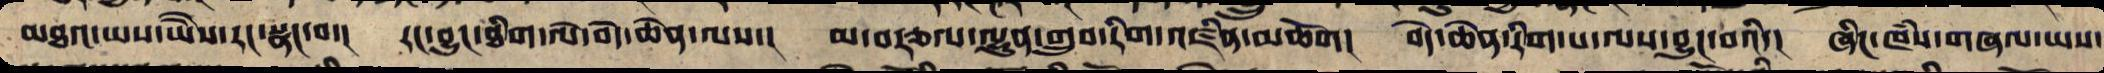མཐའ་ཡས་ཡཻས་རང་སྣང་ལ་། །ང་བྱུང་ཐིག་ལེ་བདེ་ཆེན་ལས་། མ་བརྩལ་ལྷུན་གྲུབ་རིག་འཛིན་མཆོག། བདེ་ཆེན་རིག་པ་ལས་བྱུང་བའི་། ཞིང་ཁཾས་གཞལ་ཡས་
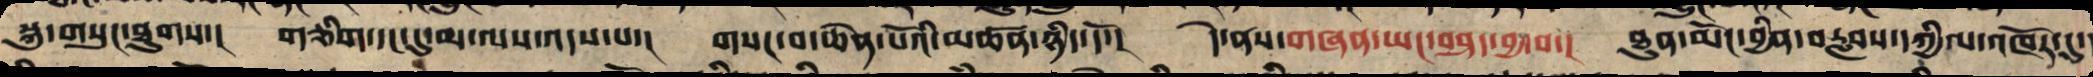སྐུ་གསུང་ཐུགས་། གཅིག་དང་དུ་མ་ལས་འདས་པ་། གསང་བ་ཆེན་པོའི་མཚན་ཉིད་དོ་། དེ་ནས་གཞན་ཡང་བཤད་བྱ་བ་། ཐུན་མོང་བྱིན་བརླབས་དཀྱིལ་འཁོར་དུ་
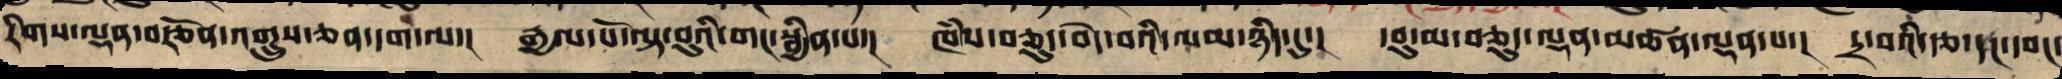རིགས་ལྡན་བརྩོན་འགྲུས་ཅན་དག་ལ་། རྒྱལ་པོ་ལྟ་བུ་གང་སྦྱིན་པ་། ཁཾས་བཅུད་བདེ་བའི་ལམ་ཉིད་དུ་། དབུ་མ་བཅུད་ལྡན་མཚན་ལྡན་པ་། དྲ་བའི་རྩ་དང་དབང་
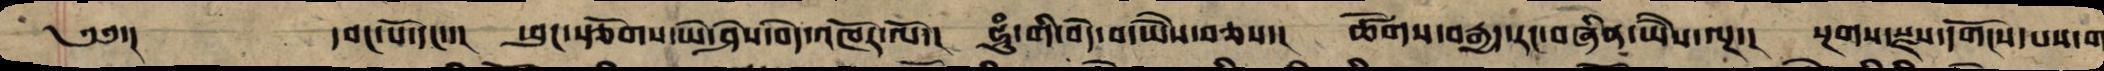༄༅་། དབང་པོ་དང་་། ཕུང་རྩོགས་ཡེ་ཤེས་བདེ་འཁོར་ལོ་། ཧཱུཾ་གི་བདེ་བ་ཡཻས་བཅས་། ཚོགས་བརྒྱད་རང་བཞིན་ཡཻས་ལྔ་། སྔགས་སྫས་དགོངས་པས་ག
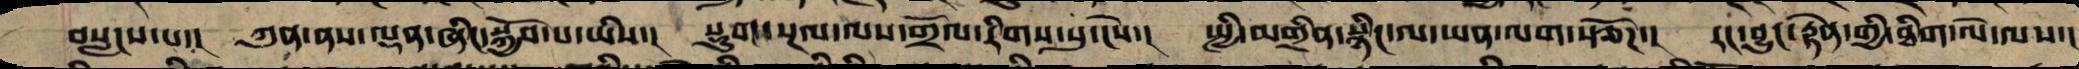བསླངས་པ་། ཀུན་ནས་ལྡན་ཞིང་སྐྱོབ་པ་ཡིས་། སྡུག་བསྔལ་ལས་གྲོལ་རིགས་སུ་ངེས་། སྤྱི་མགྲིན་སྙིང་དང་ཡན་ལག་བརྩོཌ་། རང་བྱུང་རྟེན་གྱི་ཐིག་ལེ་ལས་།
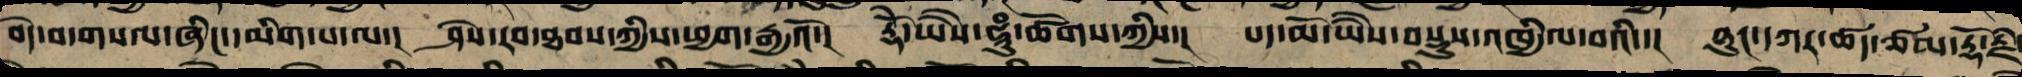བདེ་བ་གསལ་ཞིང་དམིག་པ་ལ་། ཤེས་རབ་ཐབས་ཀྱི་ཕྱག་རྒྱའོ་། རྡོེ་ཡཻས་ཧཱུཾ་ཚོགས་ཀྱིས་། པདྨ་ཡཻས་བསྡུས་འཁྱིལ་པའི་། ཉུང་དཀར་ཚད་ཙམ་རྡོ་རྗེ
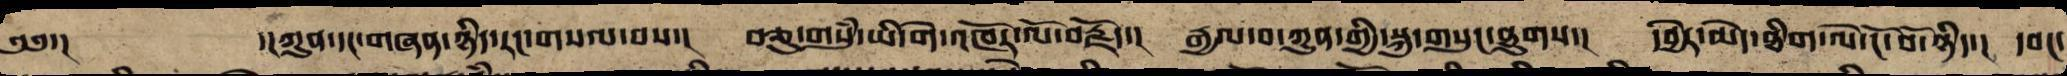༄༅་། ་།ཀུན་དང་གཞན་ཉིད་རང་གསལ་བས་། བཅུ་གསུཾ་ཡི་གེ་འཁོར་ལོ་བརྗོད་། རྒྱལ་བ་ཀུན་གྱི་སྐུ་གསུང་ཐུགས་། དབྱེར་མེད་ཐིག་ལེ་ངོ་བོ་ཉིད་། དབང་
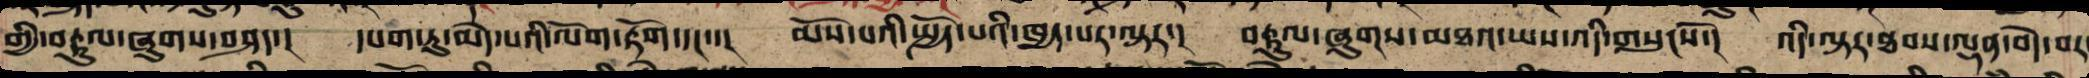གྱི་བརྟུལ་ཞུགས་བཤད་། དཔག་ཏུ་མེད་པའི་ལོག་རྟོག་དང་་། མོས་པའི་སྤྱོད་པའི་ཁྱད་པར་ལྟར་། བརྟུལ་ཞུགས་མཐའ་ཡས་འདི་གསུངས་སོ་། འདི་ལྟར་ཐབས་ལྡན་བདེ་བར་
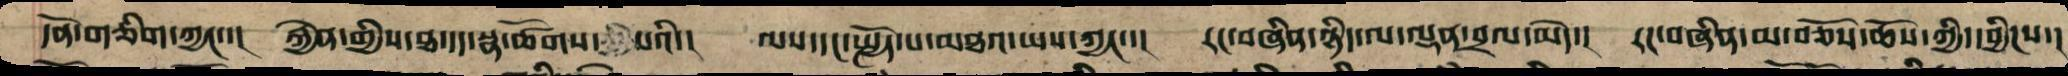དོན་གཅིག་ཀྱང་་། རྐྱེན་གྱིས་ཐ་དད་སྣ་ཚོགས་པའི་། ལས་དང་སྤྱོད་པ་མཐའ་ཡས་ཀྱང་་། རང་བཞིན་ཉིད་ལ་ལྡན་བྲལ་མེད་། རང་བཞིན་མ་བཅོས་ཆོས་ཀྱི་དབྱིངས་།
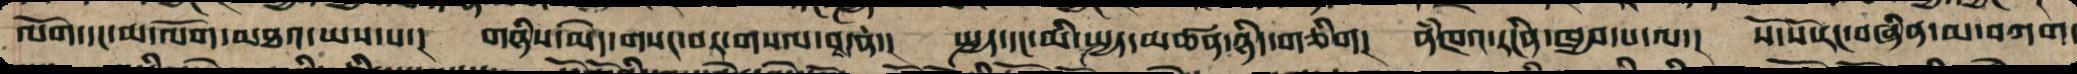ལོག་དང་མ་ལོག་མཐའ་ཡས་པ་། གཉིས་མེད་གསང་བར་གསལ་བས་ན་། སྤྱད་དང་མི་སྤྱད་མཚན་ཉིད་གཅིག། ནཾཁའ་རང་བཞིན་ཁྱབ་པ་ལ་། སོ་སོ་རང་བཞིན་མ་བཀག་
